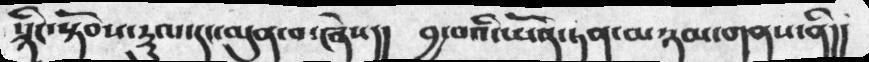སྙིང་སྟོབས་རྡུལ་དང་མུན་བ་ཞེས།།  བྱ་བའི་ཡོན་ཏན་མཉམ་གནས་ནི།།
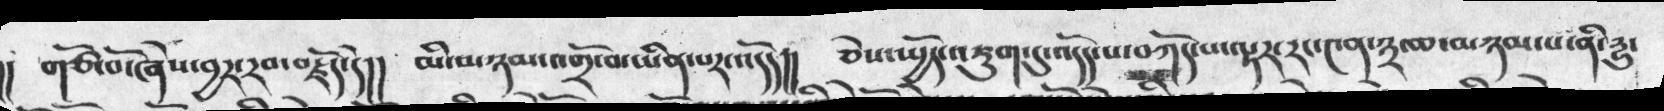།།  གཙོ་བོ་ཞེས་བྱར་རབ་བརྗོད་དེ།།  མི་མཉམ་འགྲོ་བ་ཡིན་པར་འདོད།།  ཅེས་སྤྱོད་འཇུག་དུ་འདོད་པ་བཀོད་པ་ལྟར་རང་༤ན་༣་ཆ་མཉམ་པ་ནི་རྱུ་
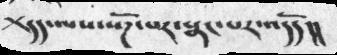+དད་ལས་སོཌ་པར་སྣང་པར་འདོད།།
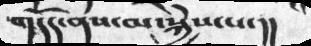གདོད་ནས་མ་སྐྱེས་པ་།།
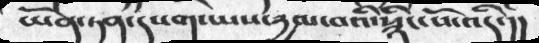ཡོན་ཏན་དཔག་ཡས་རྱལ་བའི་སྙིང་ོཔོ་འདི་།།
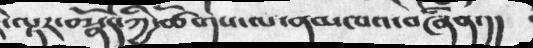་ལྟར་བསྣོད་ཀྱི་ཚོགས་ལ་ནམཁའ་བཞིན་།།
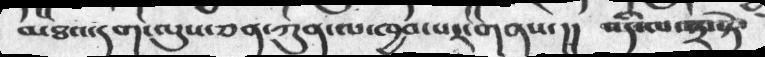མཐའ་དག་ལས་ཅན་ཀུན་ལ་ཁྱབ་པར་གནས་།།  འདི་ལ་༣་སྟེ་
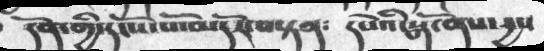དོན་གྱི་དངོས་པོ་མདོར་བསྟན༴   དཔེའི་སྒོ་ནས་དྱས
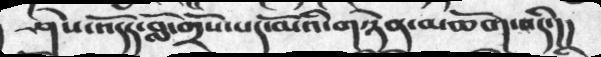ཤེས་འདོད་བློ་གྲོས་པད་མོའི་གཉེན་མཆོག་འདི་།།
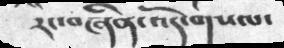རང་བཞིན་འོད་གསལ་
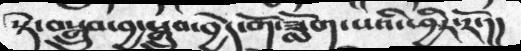སྟེ་བསྒྲུབ་བྱ་སྒྲུབ་བྱེད་གོ་ཟློག་པའི་ཕྱིར་རོ་།།
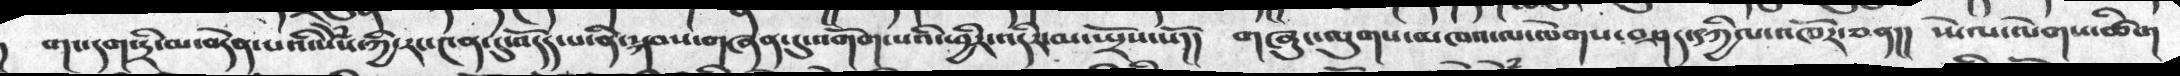གང་དག་དྲི་མ་བདེན་པའི་སེཾས་ཀྱི་རང་༤ན་དུ་འདོད་པ་ནི་སྐབས་གཞན་དུ་འགོག་པའི་ཕྱིར་འདིར་མ་སྤྲོས་སོ།། གཞུང་ལུགས་མཁའ་ལ་ལེགས་བཤད་དཀྱིལ་འཁོར་ཅན།། ཡེལ་ལེགས་ཚིག
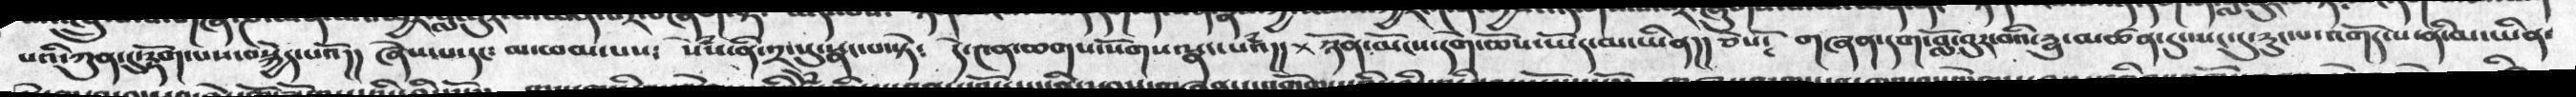པའི་ཀུན་དུ་རྟོག་པས་བསྐྱེད་པའོ།།  ཞེས་པ་དང༴   མ་ཕམ་པས༴་  སེཾས་ནི་༢་སུ་སྣང་པ་སྟེ༴   དེ་༤ན་ཆགས་སོགས་སྣང་པའཾ།། +ཉོན་མོངས་དགེ་ཆོས་ཡོད་མ་ཡིན།།  ཅེསོ་   གཞན་དག་བློ་བུར་བའི་དྱུ་མཚན་དུ་ཡང་དུ་རུང་པ་འགོད་པ་ནི་མ་ཡིན་
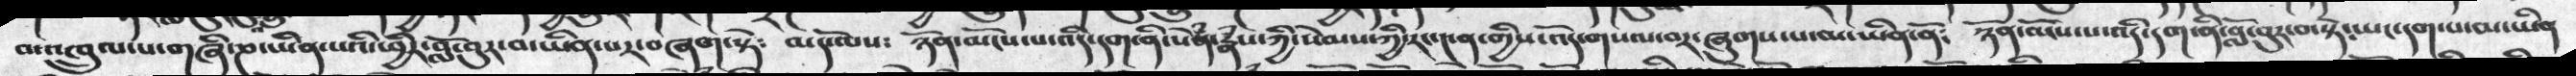བ་འཁྲུལ་པ་གཞི་ཎ་ཡིན་པའི་ཕྱིར་བློ་བུར་བ་ཡིན་པར་བཞག་སྟེ༴ མདོ་ལས༴ ཉོན་མོངས་པ་འདི་དག་ནི་སེཾན་རྣཾས་ཀྱི་སེམས་ཀྱི་རང་༤ན་གྱིས་འོད་གསལ་བར་ཞུགས་པ་མ་ཡིན་ནོ༴ ཉོན་མོངས་པ་འདི་དག་ནི་བློ་བུར་བ་སྟེ༴ཡང་དག་པ་མ་ཡིན
